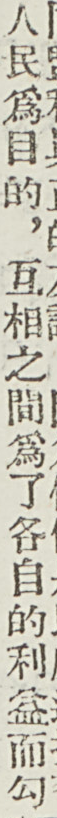人民爲目的，互相之間爲了各自的利益而勾
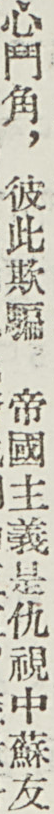心鬥角，彼此欺騙。帝國主義是仇視中蘇友
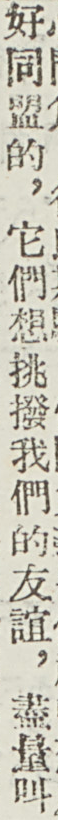好同盟的，它們想挑撥我們的友誼，盡量叫
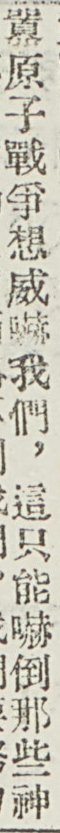囂原子戰爭想威嚇我們，這只能嚇倒那些神
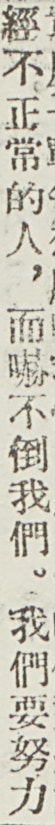經不正常的人，而嚇不倒我們。我們要努力
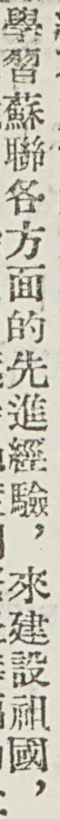學習蘇聯各方面的先進經驗，來建設祖國，
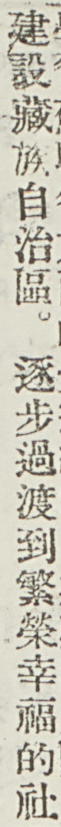建設藏族自治區。逐步過渡到繁榮幸福的社
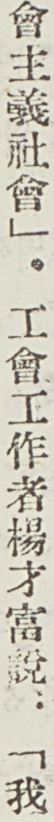會主義社會」。工會工作者楊才富說：「我
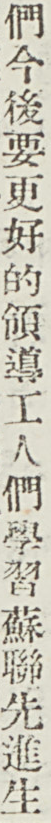們今後要更好的領導工人們學習蘇聯縣謹生
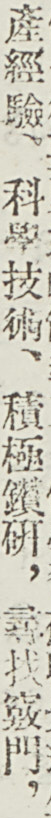產經驗、科學技術、積極鑽研，尋找竅門，
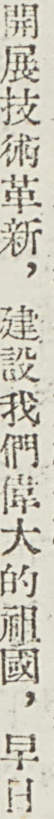開展技術革新，建設我們偉大的祖國，早日
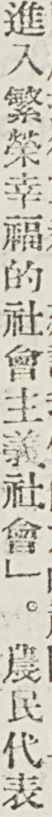進入繁榮幸福的社會主義社會」。農民代表
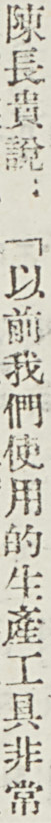陳長貴說：「以前我們使用的生產工具非常
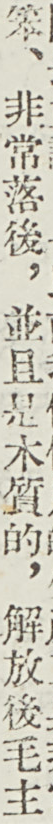笨、非常落後，並且是木質的，解放後毛主
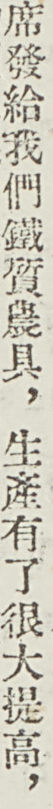席發給我們鐵質農具，生產有了很大提高，
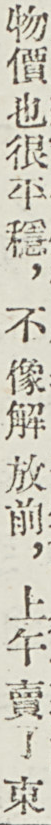物價也很平穩，不 像解 放前，上午賣了東
